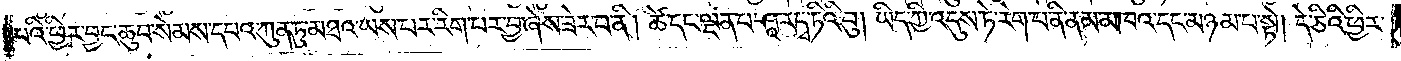པའི་ཕྱིར་བྱང་ཆུབ་སེམས་དཔའ་ཀུན་ཏུ་མཐའ་ཡས་པར་རིག་པར་བྱ་ཞེས་ཟེར་བ་ནི། ཚེ་དང་ལྡན་པ་ཤཱ་ར་དྭ་ཏིའི་བུ། ཡིད་ཀྱི་འདུས་ཏེ་རེག་པ་ནི་ནམ་མཁའ་དང་མཉམ་པ་སྟེ། དེ་ཅིའི་ཕྱིར་
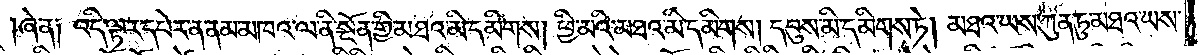ཞེ་ན། འདི་ལྟར་དཔེར་ན་ནམ་མཁའ་ལ་ནི་སྔོན་གྱི་མཐའ་མི་དམིགས། ཕྱི་མའི་མཐའ་མི་དམིགས། དབུས་མི་དམིགས་ཏེ། མཐའ་ཡས་ཀུན་ཏུ་མཐའ་ཡས་
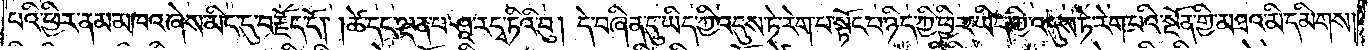པའི་ཕྱིར་ནམ་མཁའ་ཞེས་མིང་དུ་བརྗོད་དོ། །ཚེ་དང་ལྡན་པ་ཤཱ་ར་དྭ་ཏིའི་བུ། དེ་བཞིན་དུ་ཡིད་ཀྱི་འདུས་ཏེ་རེག་པ་སྟོང་པ་ཉིད་ཀྱི་ཕྱིར་ཡིད་ཀྱི་འདུས་ཏེ་རེག་པའི་སྔོན་གྱི་མཐའ་མི་དམིགས།
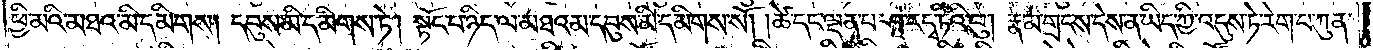ཕྱི་མའི་མཐའ་མི་དམིགས། དབུས་མི་དམིགས་ཏེ། སྟོང་པ་ཉིད་ལ་མཐའམ་དབུས་མི་དམིགས་སོ། །ཚེ་དང་ལྡན་པ་ཤཱ་ར་དྭ་ཏིའི་བུ། རྣམ་གྲངས་དེས་ན་ཡིད་ཀྱི་འདུས་ཏེ་རེག་པ་ཀུན་
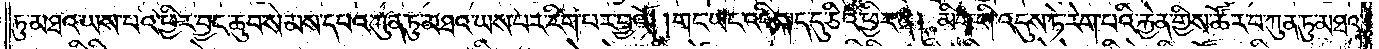ཏུ་མཐའ་ཡས་པའི་ཕྱིར་བྱང་ཆུབ་སེམས་དཔའ་ཀུན་ཏུ་མཐའ་ཡས་པར་རིག་པར་བྱའོ། །གང་ཡང་འདི་སྐད་དུ་ཅིའི་ཕྱིར་ན། མིག་གི་འདུས་ཏེ་རེག་པའི་རྐྱེན་གྱིས་ཚོར་བ་ཀུན་ཏུ་མཐའ་
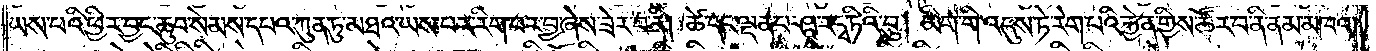ཡས་པའི་ཕྱིར་བྱང་ཆུབ་སེམས་དཔའ་ཀུན་ཏུ་མཐའ་ཡས་པར་རིག་པར་བྱ་ཞེས་ཟེར་བ་ནི། ཚེ་དང་ལྡན་པ་ཤཱ་ར་དྭ་ཏིའི་བུ། མིག་གི་འདུས་ཏེ་རེག་པའི་རྐྱེན་གྱིས་ཚོར་བ་ནི་ནམ་མཁའ་
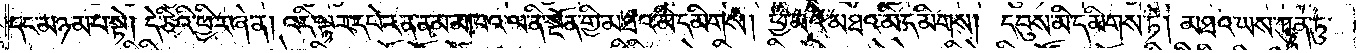དང་མཉམ་པ་སྟེ། དེ་ཅིའི་ཕྱིར་ཞེ་ན། འདི་ལྟར་དཔེར་ན་ནམ་མཁའ་ལ་ནི་སྔོན་གྱི་མཐའ་མི་དམིགས། ཕྱི་མའི་མཐའ་མི་དམིགས། དབུས་མི་དམིགས་ཏེ། མཐའ་ཡས་ཀུན་ཏུ་
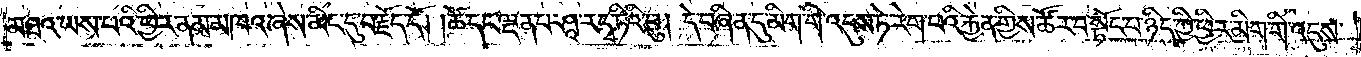མཐའ་ཡས་པའི་ཕྱིར་ནམ་མཁའ་ཞེས་མིང་དུ་བརྗོད་དོ། །ཚེ་དང་ལྡན་པ་ཤཱ་ར་དྭ་ཏིའི་བུ། དེ་བཞིན་དུ་མིག་གི་འདུས་ཏེ་རེག་པའི་རྐྱེན་གྱིས་ཚོར་བ་སྟོང་པ་ཉིད་ཀྱི་ཕྱིར་མིག་གི་འདུས་
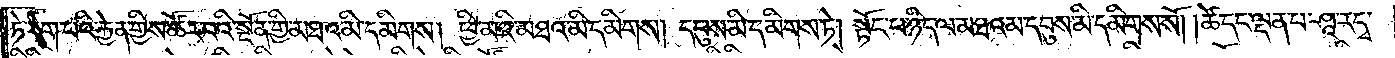ཏེ་རེག་པའི་རྐྱེན་གྱིས་ཚོར་བའི་སྔོན་གྱི་མཐའ་མི་དམིགས། ཕྱི་མའི་མཐའ་མི་དམིགས། དབུས་མི་དམིགས་ཏེ། སྟོང་པ་ཉིད་ལ་མཐའམ་དབུས་མི་དམིགས་སོ། །ཚེ་དང་ལྡན་པ་ཤཱ་ར་དྭ་
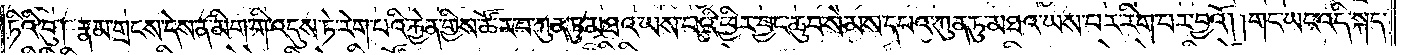ཏིའི་བུ། རྣམ་གྲངས་དེས་ན་མིག་གི་འདུས་ཏེ་རེག་པའི་རྐྱེན་གྱིས་ཚོར་བ་ཀུན་ཏུ་མཐའ་ཡས་པའི་ཕྱིར་བྱང་ཆུབ་སེམས་དཔའ་ཀུན་ཏུ་མཐའ་ཡས་པར་རིག་པར་བྱའོ། །གང་ཡང་འདི་སྐད་
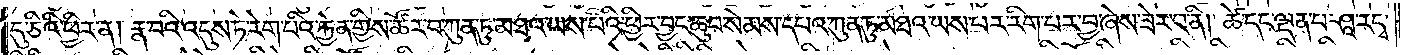དུ་ཅིའི་ཕྱིར་ན། རྣ་བའི་འདུས་ཏེ་རེག་པའི་རྐྱེན་གྱིས་ཚོར་བ་ཀུན་ཏུ་མཐའ་ཡས་པའི་ཕྱིར་བྱང་ཆུབ་སེམས་དཔའ་ཀུན་ཏུ་མཐའ་ཡས་པར་རིག་པར་བྱ་ཞེས་ཟེར་པ་ནི། ཚེ་དང་ལྡན་པ་ཤཱ་ར་དྭ་
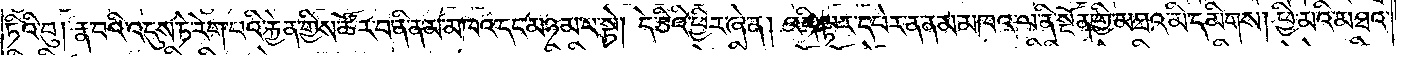ཏིའི་བུ། རྣ་བའི་འདུས་ཏེ་རེག་པའི་རྐྱེན་གྱིས་ཚོར་བ་ནི་ནམ་མཁའ་དང་མཉམ་པ་སྟེ། དེ་ཅིའི་ཕྱིར་ཞེ་ན། འདི་ལྟར་དཔེར་ན་ནམ་མཁའ་ལ་ནི་སྔོན་གྱི་མཐའ་མི་དམིགས། ཕྱི་མའི་མཐའ་
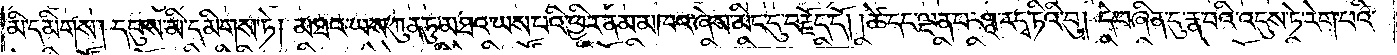མི་དམིགས། དབུས་མི་དམིགས་ཏེ། མཐའ་ཡས་ཀུན་ཏུ་མཐའ་ཡས་པའི་ཕྱིར་ནམ་མཁའ་ཞེས་མིང་དུ་བརྗོད་དོ། །ཚེ་དང་ལྡན་པ་ཤཱ་ར་དྭ་ཏིའི་བུ། དེ་བཞིན་དུ་རྣ་བའི་འདུས་ཏེ་རེག་པའི་
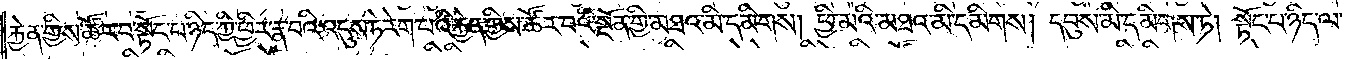རྐྱེན་གྱིས་ཚོར་བ་སྟོང་པ་ཉིད་ཀྱི་ཕྱིར་རྣ་བའི་འདུས་ཏེ་རེག་པའི་རྐྱེན་གྱིས་ཚོར་བའི་སྔོན་གྱི་མཐའ་མི་དམིགས། ཕྱི་མའི་མཐའ་མི་དམིགས། དབུས་མི་དམིགས་ཏེ། སྟོང་པ་ཉིད་ལ་
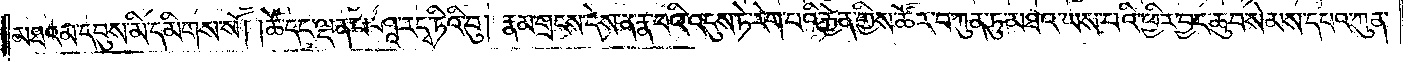མཐའམ་དབུས་མི་དམིགས་སོ། །ཚེ་དང་ལྡན་པ་ཤཱ་ར་དྭ་ཏིའི་བུ། རྣམ་གྲངས་དེས་ན་རྣ་བའི་འདུས་ཏེ་རེག་པའི་རྐྱེན་གྱིས་ཚོར་བ་ཀུན་ཏུ་མཐའ་ཡས་པའི་ཕྱིར་བྱང་ཆུབ་སེམས་དཔའ་ཀུན་
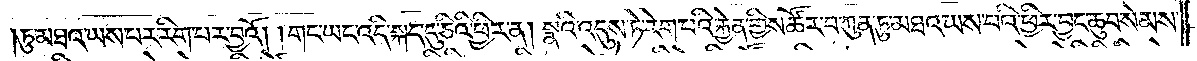ཏུ་མཐའ་ཡས་པར་རིག་པར་བྱའོ། །གང་ཡང་འདི་སྐད་དུ་ཅིའི་ཕྱིར་ན། སྣའི་འདུས་ཏེ་རེག་པའི་རྐྱེན་གྱིས་ཚོར་བ་ཀུན་ཏུ་མཐའ་ཡས་པའི་ཕྱིར་བྱང་ཆུབ་སེམས་
